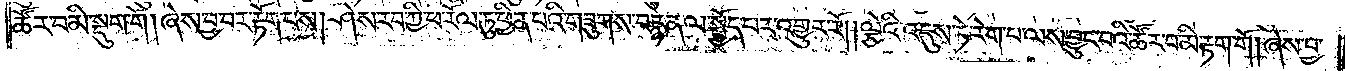ཚོར་བ་མི་སྡུག་གོ། ཞེས་བྱ་བར་རྟོག་པས། ཤེས་རབ་ཀྱི་ཕ་རོལ་ཏུ་ཕྱིན་པའི་གཟུགས་བརྙན་ལ་སྤྱོད་པར་འགྱུར་རོ། །ལྕེའི་འདུས་ཏེ་རེག་པ་ལས་བྱུང་བའི་ཚོར་བ་མི་རྟག་གོ། ཞེས་བྱ་
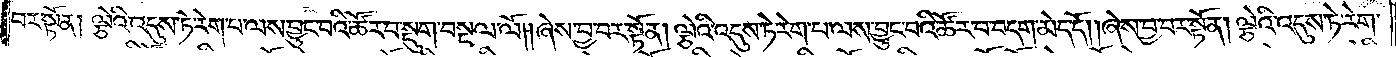བར་སྟོན། ལྕེའི་འདུས་ཏེ་རེག་པ་ལས་བྱུང་བའི་ཚོར་བ་སྡུག་བསྔལ་ལོ། །ཞེས་བྱ་བར་སྟོན། ལྕེའི་འདུས་ཏེ་རེག་པ་ལས་བྱུང་བའི་ཚོར་བ་བདག་མེད་དོ། །ཞེས་བྱ་བར་སྟོན། ལྕེའི་འདུས་ཏེ་རེག་
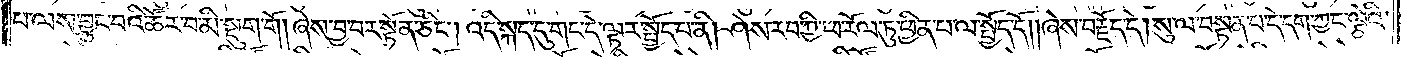པ་ལས་བྱུང་བའི་ཚོར་བ་མི་སྡུག་གོ། ཞེས་བྱ་བར་སྟོན་ཅིང༌། འདི་སྐད་དུ་གང་དེ་ལྟར་སྤྱོད་པ་ནི། ཤེས་རབ་ཀྱི་ཕ་རོལ་ཏུ་ཕྱིན་པ་ལ་སྤྱོད་དོ། །ཞེས་བརྗོད་དེ། སུ་ལ་བསྟན་པ་དེ་དག་ཀྱང་ལྕེའི་
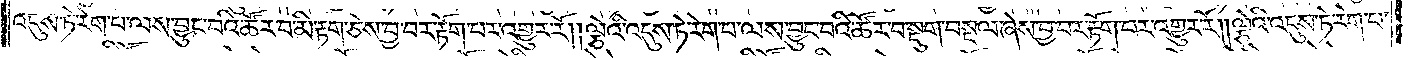འདུས་ཏེ་རེག་པ་ལས་བྱུང་བའི་ཚོར་བ་མི་རྟག་ཅེས་བྱ་བར་རྟོག་པར་འགྱུར་རོ། །ལྕེའི་འདུས་ཏེ་རེག་པ་ལས་བྱུང་བའི་ཚོར་བ་སྡུག་བསྔལ་ཞེས་བྱ་བར་རྟོག་པར་འགྱུར་རོ། །ལྕེའི་འདུས་ཏེ་རེག་པ་
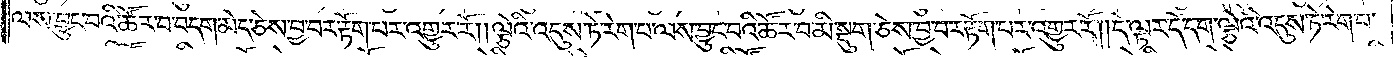ལས་བྱུང་བའི་ཚོར་བ་བདག་མེད་ཅེས་བྱ་བར་རྟོག་པར་འགྱུར་རོ། །ལྕེའི་འདུས་ཏེ་རེག་པ་ལས་བྱུང་བའི་ཚོར་བ་མི་སྡུག་ཅེས་བྱ་བར་རྟོག་པར་འགྱུར་རོ། །དེ་ལྟར་དེ་དག་ལྕེའི་འདུས་ཏེ་རེག་པ་
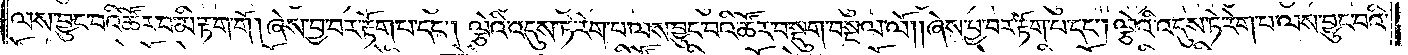ལས་བྱུང་བའི་ཚོར་བ་མི་རྟག་གོ། ཞེས་བྱ་བར་རྟོག་པ་དང༌། ལྕེའི་འདུས་ཏེ་རེག་པ་ལས་བྱུང་བའི་ཚོར་བ་སྡུག་བསྔལ་ལོ། །ཞེས་བྱ་བར་རྟོག་པ་དང༌། ལྕེའི་འདུས་ཏེ་རེག་པ་ལས་བྱུང་བའི་
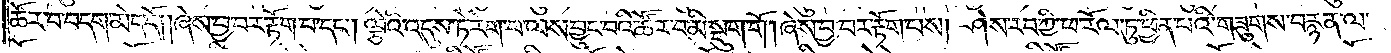ཚོར་བ་བདག་མེད་དོ། །ཞེས་བྱ་བར་རྟོག་པ་དང༌། ལྕེའི་འདུས་ཏེ་རེག་པ་ལས་བྱུང་བའི་ཚོར་བ་མི་སྡུག་གོ། ཞེས་བྱ་བར་རྟོག་པས། ཤེས་རབ་ཀྱི་ཕ་རོལ་ཏུ་ཕྱིན་པའི་གཟུགས་བརྙན་ལ་
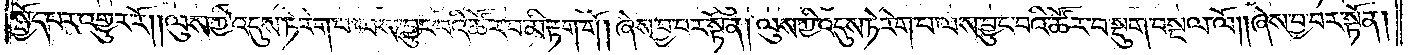སྤྱོད་པར་འགྱུར་རོ། །ལུས་ཀྱི་འདུས་ཏེ་རེག་པ་ལས་བྱུང་བའི་ཚོར་བ་མི་རྟག་གོ། ཞེས་བྱ་བར་སྟོན། ལུས་ཀྱི་འདུས་ཏེ་རེག་པ་ལས་བྱུང་བའི་ཚོར་བ་སྡུག་བསྔལ་ལོ། །ཞེས་བྱ་བར་སྟོན།
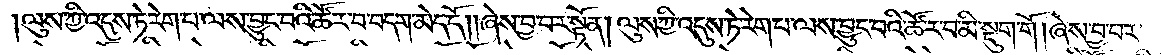ལུས་ཀྱི་འདུས་ཏེ་རེག་པ་ལས་བྱུང་བའི་ཚོར་བ་བདག་མེད་དོ། །ཞེས་བྱ་བར་སྟོན། ལུས་ཀྱི་འདུས་ཏེ་རེག་པ་ལས་བྱུང་བའི་ཚོར་བ་མི་སྡུག་གོ། ཞེས་བྱ་བར་
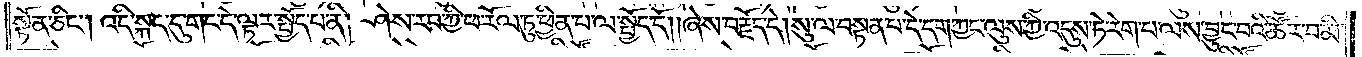སྟོན་ཅིང༌། འདི་སྐད་དུ་གང་དེ་ལྟར་སྤྱོད་པ་ནི། ཤེས་རབ་ཀྱི་ཕ་རོལ་ཏུ་ཕྱིན་པ་ལ་སྤྱོད་དོ། །ཞེས་བརྗོད་དེ། སུ་ལ་བསྟན་པ་དེ་དག་ཀྱང་ལུས་ཀྱི་འདུས་ཏེ་རེག་པ་ལས་བྱུང་བའི་ཚོར་བ་མི་
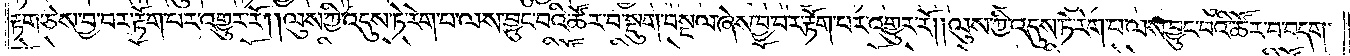རྟག་ཅེས་བྱ་བར་རྟོག་པར་འགྱུར་རོ། །ལུས་ཀྱི་འདུས་ཏེ་རེག་པ་ལས་བྱུང་བའི་ཚོར་བ་སྡུག་བསྔལ་ཞེས་བྱ་བར་རྟོག་པར་འགྱུར་རོ། །ལུས་ཀྱི་འདུས་ཏེ་རེག་པ་ལས་བྱུང་བའི་ཚོར་བ་བདག་
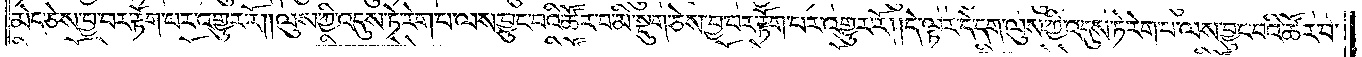མེད་ཅེས་བྱ་བར་རྟོག་པར་འགྱུར་རོ། །ལུས་ཀྱི་འདུས་ཏེ་རེག་པ་ལས་བྱུང་བའི་ཚོར་བ་མི་སྡུག་ཅེས་བྱ་བར་རྟོག་པར་འགྱུར་རོ། །དེ་ལྟར་དེ་དག་ལུས་ཀྱི་འདུས་ཏེ་རེག་པ་ལས་བྱུང་བའི་ཚོར་བ་
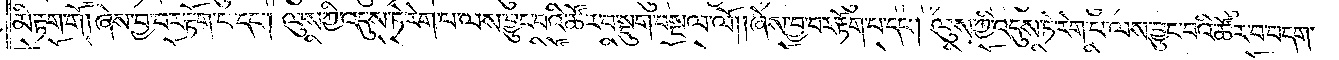མི་རྟག་གོ། ཞེས་བྱ་བར་རྟོག་པ་དང༌། ལུས་ཀྱི་འདུས་ཏེ་རེག་པ་ལས་བྱུང་བའི་ཚོར་བ་སྡུག་བསྔལ་ལོ། །ཞེས་བྱ་བར་རྟོག་པ་དང༌། ལུས་ཀྱི་འདུས་ཏེ་རེག་པ་ལས་བྱུང་བའི་ཚོར་བ་བདག་
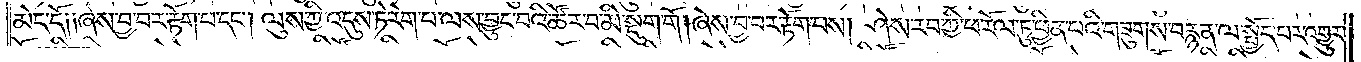མེད་དོ༑ ༑ཞེས་བྱ་བར་རྟོག་པ་དང༌། ལུས་ཀྱི་འདུས་ཏེ་རེག་པ་ལས་བྱུང་བའི་ཚོར་བ་མི་སྡུག་གོ། ཞེས་བྱ་བར་རྟོག་པས། ཤེས་རབ་ཀྱི་ཕ་རོལ་ཏུ་ཕྱིན་པའི་གཟུགས་བརྙན་ལ་སྤྱོད་པར་འགྱུར་
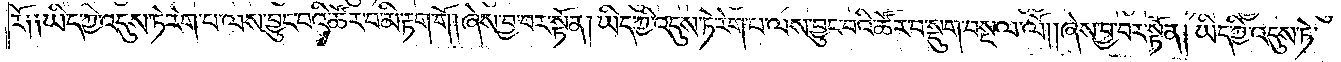རོ༑ ༑ཡིད་ཀྱི་འདུས་ཏེ་རེག་པ་ལས་བྱུང་བའི་ཚོར་བ་མི་རྟག་གོ། ཞེས་བྱ་བར་སྟོན། ཡིད་ཀྱི་འདུས་ཏེ་རེག་པ་ལས་བྱུང་བའི་ཚོར་བ་སྡུག་བསྔལ་ལོ། །ཞེས་བྱ་བར་སྟོན། ཡིད་ཀྱི་འདུས་ཏེ་
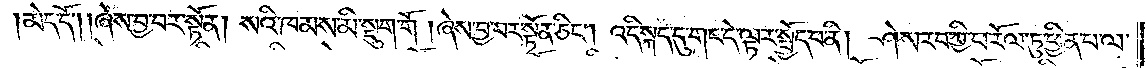མེད་དོ། །ཞེས་བྱ་བར་སྟོན། སའི་ཁམས་མི་སྡུག་གོ། ཞེས་བྱ་བར་སྟོན་ཅིང༌། འདི་སྐད་དུ་གང་དེ་ལྟར་སྤྱོད་པ་ནི། ཤེས་རབ་ཀྱི་ཕ་རོལ་ཏུ་ཕྱིན་པ་ལ་
